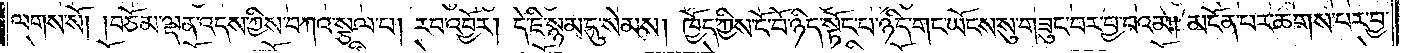ལགས་སོ། །བཅོམ་ལྡན་འདས་ཀྱིས་བཀའ་སྩལ་པ། རབ་འབྱོར། དེ་ཇི་སྙམ་དུ་སེམས། ཁྱོད་ཀྱིས་ངོ་བོ་ཉིད་སྟོང་པ་ཉིད་གང་ཡོངས་སུ་གཟུང་བར་བྱ་བའམ། མངོན་པར་ཆགས་པར་བྱ་
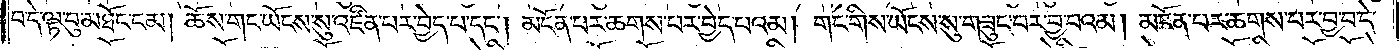བ་དེ་ལྟ་བུ་མཐོང་ངམ། ཆོས་གང་ཡོངས་སུ་འཛིན་པར་བྱེད་པ་དང༌། མངོན་པར་ཆགས་པར་བྱེད་པའམ། གང་གིས་ཡོངས་སུ་གཟུང་བར་བྱ་བའམ། མངོན་པར་ཆགས་པར་བྱ་བ་དེ་
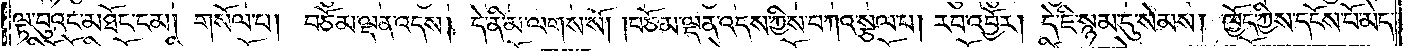ལྟ་བུའང་མཐོང་ངམ། གསོལ་པ། བཅོམ་ལྡན་འདས། དེ་ནི་མ་ལགས་སོ། །བཅོམ་ལྡན་འདས་ཀྱིས་བཀའ་སྩལ་པ། རབ་འབྱོར། དེ་ཇི་སྙམ་དུ་སེམས། ཁྱོད་ཀྱིས་དངོས་པོ་མེད་
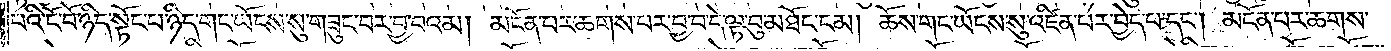པའི་ངོ་བོ་ཉིད་སྟོང་པ་ཉིད་གང་ཡོངས་སུ་གཟུང་བར་བྱ་བའམ། མངོན་པར་ཆགས་པར་བྱ་བ་དེ་ལྟ་བུ་མཐོང་ངམ། ཆོས་གང་ཡོངས་སུ་འཛིན་པར་བྱེད་པ་དང༌། མངོན་པར་ཆགས་
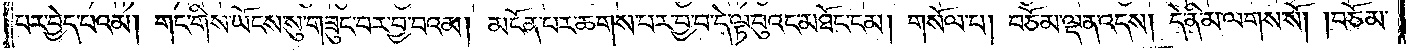པར་བྱེད་པའམ། གང་གིས་ཡོངས་སུ་གཟུང་བར་བྱ་བའམ། མངོན་པར་ཆགས་པར་བྱ་བ་དེ་ལྟ་བུའང་མཐོང་ངམ། གསོལ་པ། བཅོམ་ལྡན་འདས་དེ་ནི་མ་ལགས་སོ། །བཅོམ་
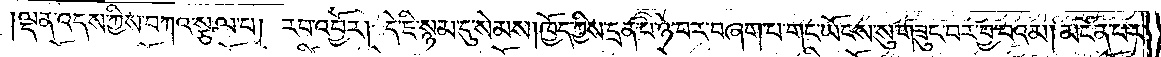ལྡན་འདས་ཀྱིས་བཀའ་སྩལ་པ། རབ་འབྱོར། དེ་ཇི་སྙམ་དུ་སེམས། ཁྱོད་ཀྱིས་དྲན་པ་ཉེ་བར་བཞག་པ་གང་ཡོངས་སུ་གཟུང་བར་བྱ་བའམ། མངོན་པར་
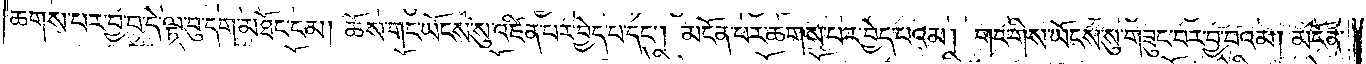ཆགས་པར་བྱ་བ་དེ་ལྟ་བུ་དག་མཐོང་ངམ། ཆོས་གང་ཡོངས་སུ་འཛིན་པར་བྱེད་པ་དང༌། མངོན་པར་ཆགས་པར་བྱེད་པའམ། གང་གིས་ཡོངས་སུ་གཟུང་བར་བྱ་བའམ། མངོན་
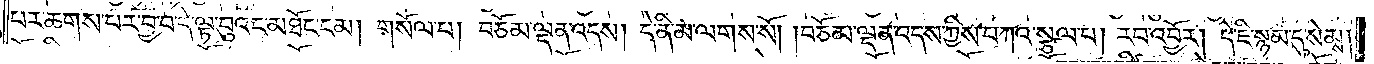པར་ཆགས་པར་བྱ་བ་དེ་ལྟ་བུའང་མཐོང་ངམ། གསོལ་པ། བཅོམ་ལྡན་འདས། དེ་ནི་མ་ལགས་སོ། །བཅོམ་ལྡན་འདས་ཀྱིས་བཀའ་སྩལ་པ། རབ་འབྱོར། དེ་ཇི་སྙམ་དུ་སེམས།
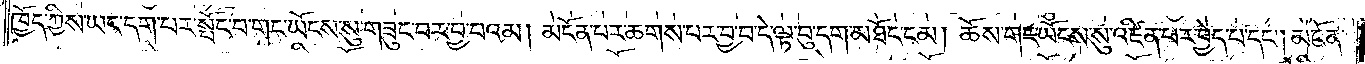ཁྱོད་ཀྱིས་ཡང་དག་པར་སྤོང་བ་གང་ཡོངས་སུ་གཟུང་བར་བྱ་བའམ། མངོན་པར་ཆགས་པར་བྱ་བ་དེ་ལྟ་བུ་དག་མཐོང་ངམ། ཆོས་གང་ཡོངས་སུ་འཛིན་པར་བྱེད་པ་དང༌། མངོན་
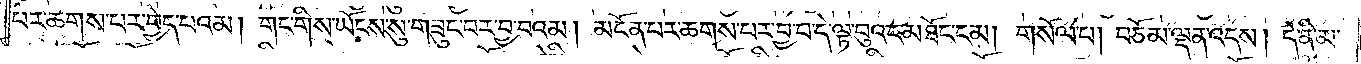པར་ཆགས་པར་བྱེད་པའམ། གང་གིས་ཡོངས་སུ་གཟུང་བར་བྱ་བའམ། མངོན་པར་ཆགས་པར་བྱ་བ་དེ་ལྟ་བུའང་མཐོང་ངམ། གསོལ་པ། བཅོམ་ལྡན་འདས། དེ་ནི་མ་
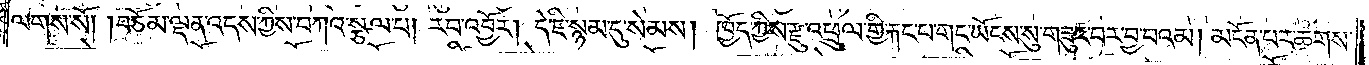ལགས་སོ། །བཅོམ་ལྡན་འདས་ཀྱིས་བཀའ་སྩལ་པ། རབ་འབྱོར། དེ་ཇི་སྙམ་དུ་སེམས། ཁྱོད་ཀྱིས་རྫུ་འཕྲུལ་གྱི་རྐང་པ་གང་ཡོངས་སུ་གཟུང་བར་བྱ་བའམ། མངོན་པར་ཆགས་
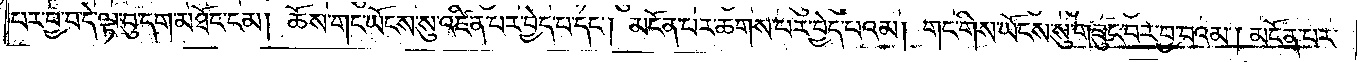པར་བྱ་བ་དེ་ལྟ་བུ་དག་མཐོང་ངམ། ཆོས་གང་ཡོངས་སུ་འཛིན་པར་བྱེད་པ་དང༌། མངོན་པར་ཆགས་པར་བྱེད་པའམ། གང་གིས་ཡོངས་སུ་གཟུང་བར་བྱ་བའམ། མངོན་པར་
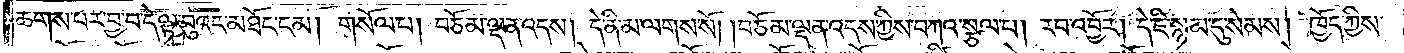ཆགས་པར་བྱ་བ་དེ་ལྟ་བུའང་མཐོང་ངམ། གསོལ་པ། བཅོམ་ལྡན་འདས། དེ་ནི་མ་ལགས་སོ། །བཅོམ་ལྡན་འདས་ཀྱིས་བཀའ་སྩལ་པ། རབ་འབྱོར། དེ་ཇི་སྙམ་དུ་སེམས། ཁྱོད་ཀྱིས་
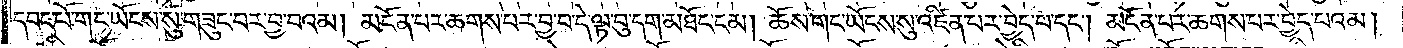དབང་པོ་གང་ཡོངས་སུ་གཟུང་བར་བྱ་བའམ། མངོན་པར་ཆགས་པར་བྱ་བ་དེ་ལྟ་བུ་དག་མཐོང་ངམ། ཆོས་གང་ཡོངས་སུ་འཛིན་པར་བྱེད་པ་དང༌། མངོན་པར་ཆགས་པར་བྱེད་པའམ།
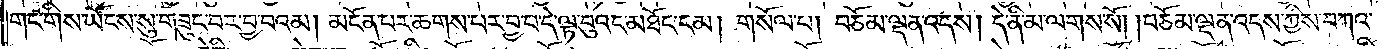གང་གིས་ཡོངས་སུ་གཟུང་བར་བྱ་བའམ། མངོན་པར་ཆགས་པར་བྱ་བ་དེ་ལྟ་བུའང་མཐོང་ངམ། གསོལ་པ། བཅོམ་ལྡན་འདས། དེ་ནི་མ་ལགས་སོ། །བཅོམ་ལྡན་འདས་ཀྱིས་བཀའ་
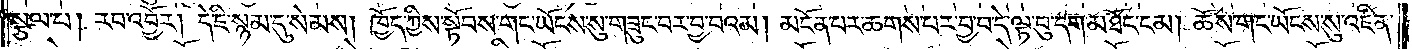སྩལ་པ། རབ་འབྱོར། དེ་ཇི་སྙམ་དུ་སེམས། ཁྱོད་ཀྱིས་སྟོབས་གང་ཡོངས་སུ་གཟུང་བར་བྱ་བའམ། མངོན་པར་ཆགས་པར་བྱ་བ་དེ་ལྟ་བུ་དག་མཐོང་ངམ། ཆོས་གང་ཡོངས་སུ་འཛིན་
